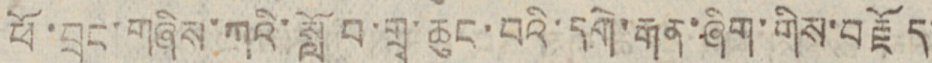ཕོ་བྲང་གཞིས་ཀའི་སློབ་གྲྭ་ཆུང་བའི་དགེ་རྒན་ཞིག་གིས་བརྗོད་
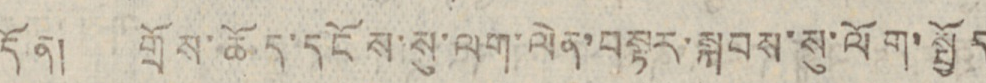དོན། གྲོས་ཆོད་དངོས་སུ་ལག་ལེན་བསྟར་སྐབས་སུ་ལོག་སྤྱོད
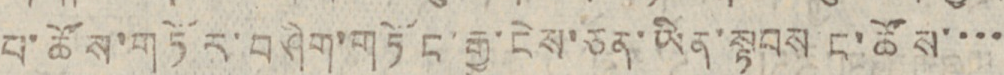པ་ཚོས་གཏོར་བཤེག་གཏོང་རྒྱུ་ངེས་ཅན་ཡིན་སྟབས ང་ཚོས་་་་
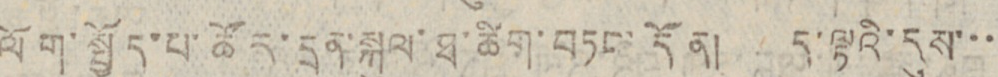ལོག་སྤྱོད་པ་ཚོར་དྲན་སྐུལ་ཐ་ཚིག་བཏང་དོན། ད་ལྟའི་དུས་་་
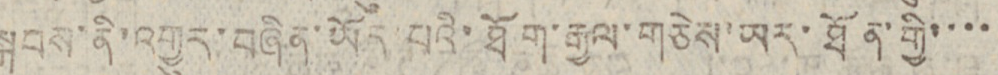སྐབས་ནི་འགྱུར་བཞིན་ཡོད་པའི་ཐོག་རྒྱལ་གཅེས་ཡར་ཐོན་གྱི་་་་
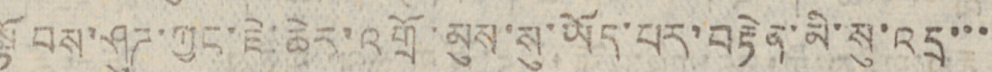སྟོབས་ཤུཊ་ཀྱང་ཇེ་ཆེར་འགྲོ་མུས་སུ་ཡོད་པར་བརྟེན་མི་སུ་འདྲ་་་
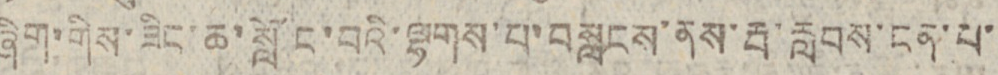ཞིག་གིས་ཟིང་ཆ་སློང་བའི་ལྷགས་པ་བསླངས་ནས་རྦ་རླབས་ངན་པ་
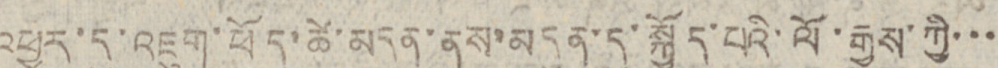འཕྱུར་དུ་འཇུག་ཕོད་ཚེ་མདུན་ནས་མདུན་དུ་སྐྱོད་པའི་ལོ་རྒྱུས་ཀྱི་་་
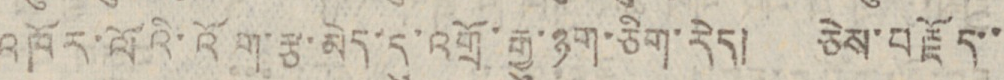འཁོར་ལོའི་འགོ་རྩ་མེད་དུ་འགྲོ་རྒྱུ་ཉག་ཅིག་རེད། ཅེས་བརྗོད་་
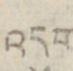འདུག
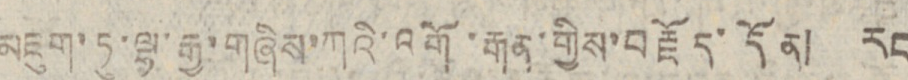མཇུག་ཏུ་ལྷ་རྒྱ་གཞིས་ཀའི་འགོ་རྒན་གྱིས་བརྗོད་དོན། རང་
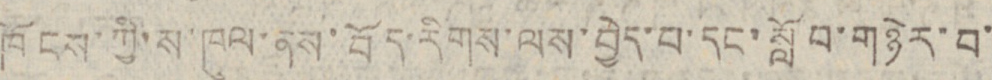ཁོངས་ཀྱི་ས་ཁུལ་ནས་བོད་རིགས་ལས་བྱེད་པ་དང་སློབ་གཉེར་བ་
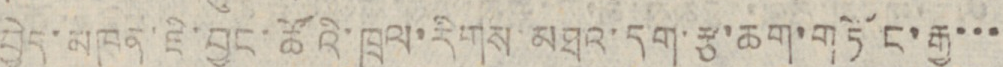བྱེད་མཁན་ཇི་བྱུང་ཚོའི་ཁྲལ་རིགས་མཐའ་དག་རྩ་ཆག་གཏོང་རྒྱུ་་་
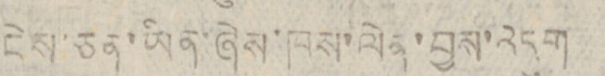ངེས་ཅན་ཡིན་ཞེས་ཁས་ལེན་བྱས་འདུག
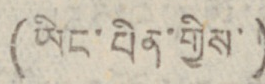(ཡིང་པིན་གྱིས་ )
